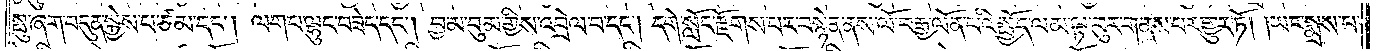སྤུ་ཞག་བདུན་སྐྱེས་པ་ཙམ་དང༌། ལག་པ་ལྷུང་བཟེད་དང༌། བྱ་མ་བུམ་གྱིས་འབྲེལ་བ་དང༌། དགེ་སློང་རྫོགས་པར་བསྙེན་ནས་ལོ་བརྒྱ་ལོན་པའི་སྤྱོད་ལམ་ལྟ་བུར་གནས་པར་གྱུར་ཏོ། །ཡང་སྨྲས་པ་
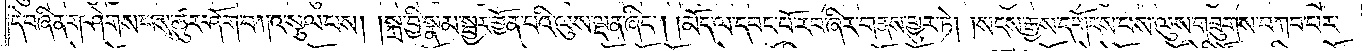དེ་བཞིན་གཤེགས་པས་ཚུར་ཤོག་བཀའ་སྩལ་པས། །སྐྲ་བྱི་སྣམ་སྦྱར་གྱོན་པའི་ལུས་ལྡན་ཞིང༌། །མོད་ལ་དབང་པོ་རབ་ཞིར་གནས་གྱུར་ཏེ། །སངས་རྒྱས་དགོངས་པས་ལུས་གཟུགས་བཀབ་པར་
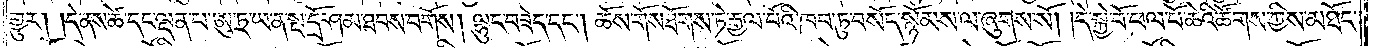གྱུར། །དེ་ནས་ཚེ་དང་ལྡན་པ་ཨུ་ཏྲ་ཡ་ན་སྔ་དྲོ་ཤམ་ཐབས་བགོས། ལྷུང་བཟེད་དང༌། ཆོས་གོས་ཐོགས་ཏེ་རྒྱལ་པོའི་ཁབ་ཏུ་བསོད་སྙོམས་ལ་ཞུགས་སོ། །དེ་སྐྱེ་བོ་ཕལ་པོ་ཆེའི་ཚོགས་ཀྱིས་མཐོང་
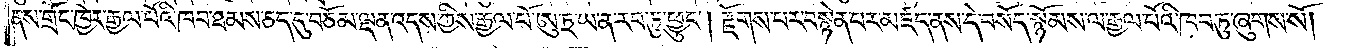ནས་གྲོང་ཁྱེར་རྒྱལ་པོའི་ཁབ་ཐམས་ཅད་དུ་བཅོམ་ལྡན་འདས་ཀྱིས་རྒྱལ་པོ་ཨུ་ཏྲ་ཡ་ན་རབ་ཏུ་ཕྱུང༌། རྫོགས་པར་བསྙེན་པར་མཛད་ནས་དེ་བསོད་སྙོམས་ལ་རྒྱལ་པོའི་ཁབ་ཏུ་ཞུགས་སོ། །
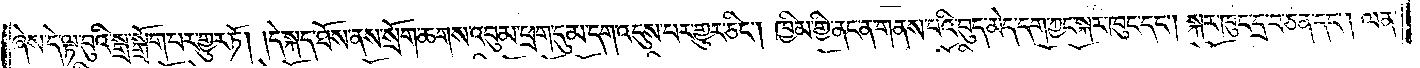ཞེས་དེ་ལྟ་བུའི་སྒྲ་སྒྲོག་པར་གྱུར་ཏོ། །དེ་སྐད་ཐོས་ནས་སྲོག་ཆགས་འབུམ་ཕྲག་དུ་མ་དག་འདུས་པར་གྱུར་ཅིང༌། ཁྱིམ་གྱི་ནང་ན་གནས་པའི་བུད་མེད་དག་ཀྱང་སྐར་ཁུང་དང༌། སྐར་ཁུང་དྲ་བ་ཅན་དང༌། ལན་
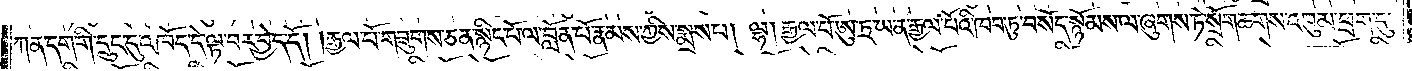ཀན་དག་གི་དྲུང་དུ་འཁོད་དེ་ལྟ་བར་བྱེད་དོ། །རྒྱལ་པོ་གཟུགས་ཅན་སྙིང་པོ་ལ་བློན་པོ་རྣམས་ཀྱིས་སྨྲས་པ། ལྷ། རྒྱལ་པོ་ཨུ་ཏྲ་ཡ་ན་རྒྱལ་པོའི་ཁབ་ཏུ་བསོད་སྙོམས་ལ་ཞུགས་ཏེ་སྲོག་ཆགས་འབུམ་ཕྲག་དུ་
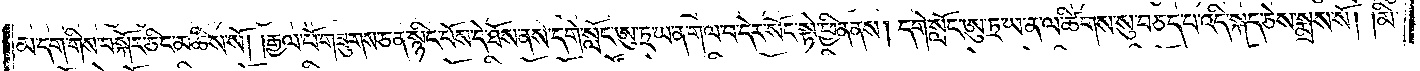མ་དག་གིས་བསྐོར་ཅིང་མཆིས་སོ། །རྒྱལ་པོ་གཟུགས་ཅན་སྙིང་པོས་དེ་ཐོས་ནས་དགེ་སློང་ཨུ་ཏྲ་ཡ་ན་ག་ལ་བ་དེར་སོང་སྟེ་ཕྱིན་ནས། དགེ་སློང་ཨུ་ཏྲ་ཡ་ན་ལ་ཚིགས་སུ་བཅད་པ་འདི་སྐད་ཅེས་སྨྲས་སོ། །མི་
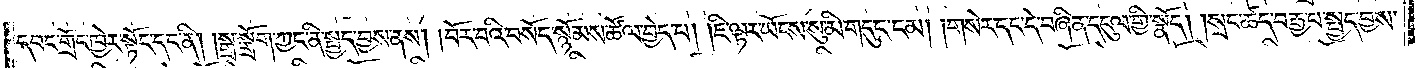དབང་གྲོང་ཁྱེར་སྟོང་དང་ནི། །སྒྲ་སྒྲོག་ཀྱང་ནི་སྤྱད་བྱས་ནས། །བོར་བའི་བསོད་སྙོམས་ཚོལ་བྱེད་པ། །ཇི་ལྟར་ཡོངས་སུ་མི་གདུང་ངམ། །གསེར་དང་དེ་བཞིན་དངུལ་གྱི་སྣོད། །སྲང་ཚད་བརྒྱ་པ་སྤྱད་བྱས་
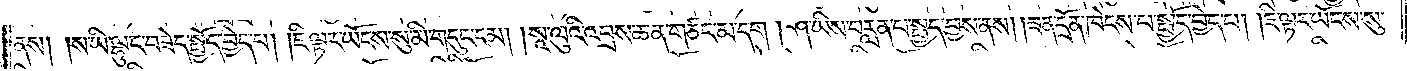ནས། །ས་ཡི་ལྷུང་བཟེད་སྤྱོད་བྱེད་པ། །ཇི་ལྟར་ཡོངས་སུ་མི་གདུང་ངམ། །སཱ་ལུའི་འབྲས་ཆན་གཙང་མ་དག །ཤ་ཡིས་བརླན་པ་སྤྱད་བྱས་ནས། །ཟན་དྲོན་ཁེངས་པ་སྤྱོད་བྱེད་པ། །ཇི་ལྟར་ཡོངས་སུ་
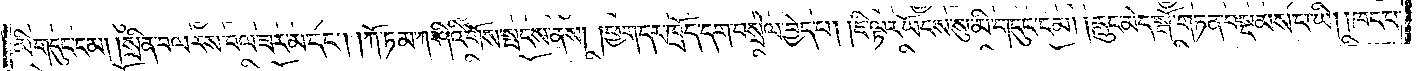མི་གདུང་ངམ། །སྲིན་བལ་རས་བལ་ཟར་མ་དང༌། །ཀོ་ཏ་མ་ཀ་ཤིའི་གོས་སྤངས་ནས། །ཕྱག་དར་ཁྲོད་དག་བསྲེལ་བྱེད་པ། །ཇི་ལྟར་ཡོངས་སུ་མི་གདུང་ངམ། །རླུང་མེད་སྒོ་གཏན་བསྡམས་པ་ཡི། །ཁང་པ་
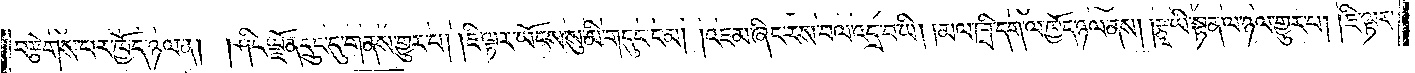བརྩེགས་པར་ཁྱོད་ཉལ་ན། །ཤིང་ལྗོན་དྲུང་དུ་གནས་གྱུར་པ། །ཇི་ལྟར་ཡོངས་སུ་མི་གདུང་ངམ། །འཇམ་ཞིང་རས་བལ་འདྲ་བ་ཡི། །མལ་ཁྲི་དག་ལ་ཁྱོད་ཉལ་ནས། །རྩྭ་ཡི་སྟན་ལ་ཉལ་གྱུར་པ། །ཇི་ལྟར་
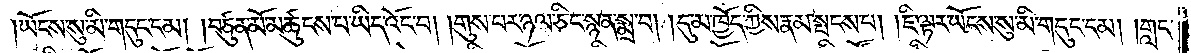ཡོངས་སུ་མི་གདུང་ངམ། །བཙུན་མོ་མཚུངས་པ་ཡིད་འོང་བ། །གུས་པར་ཉལ་ཅིང་སྙན་སྨྲ་བ། །དུ་མ་ཁྱོད་ཀྱིས་རྣམ་སྤངས་པ། །ཇི་ལྟར་ཡོངས་སུ་མི་གདུང་ངམ། །གླང་
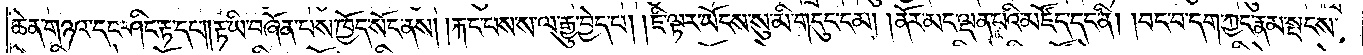ཆེན་གཉའ་དང་ཤིང་རྟ་དང༌༎རྟ་ཡི་བཞོན་པས་ཁྱོད་སོང་ནས། །རྐང་པས་ས་ལ་རྒྱུ་བྱེད་པ། །ཇི་ལྟར་ཡོངས་སུ་མི་གདུང་ངམ། ། ནོར་མང་ལྡན་པའི་མཛོད་དང་ནི། །བང་བ་དག་ཀྱང་རྣམ་སྤངས་
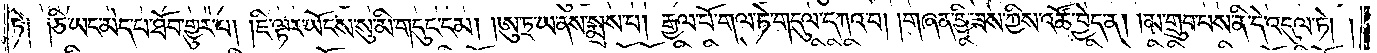ཏེ། །ཅི་ཡང་མེད་པ་ཐོབ་གྱུར་པ། །ཇི་ལྟར་ཡོངས་སུ་མི་གདུང་ངམ། །ཨུ་ཏྲ་ཡ་ནས་སྨྲས་པ། རྒྱལ་པོ་གལ་ཏེ་གདུལ་དཀའ་བ། །གཞན་གྱི་ཟས་ཀྱིས་འཚོ་བྱེད་ན། །མ་གྲུབ་པས་ནི་དེ་འདུལ་ཏེ། །
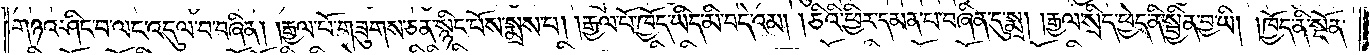གཉའ་ཤིང་བ་ལང་འདུལ་བ་བཞིན། །རྒྱལ་པོ་གཟུགས་ཅན་སྙིང་པོས་སྨྲས་པ། །རྒྱལ་པོ་ཁྱོད་ཡིད་མི་བདེའམ། །ཅིའི་ཕྱིར་དམན་པ་བཞིན་དུ་སྨྲ། །རྒྱལ་སྲིད་ཕྱེད་ནི་སྦྱིན་བྱ་ཡི། །ཁྱོད་ནི་སྔོན་
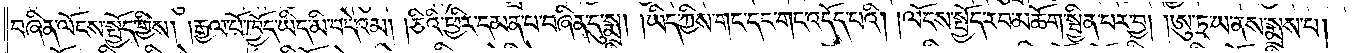བཞིན་ལོངས་སྤྱོད་གྱིས། །རྒྱལ་པོ་ཁྱོད་ཡིད་མི་བདེའམ། །ཅིའི་ཕྱིར་དམན་པ་བཞིན་དུ་སྨྲ། །ཡིད་ཀྱིས་གང་དང་གང་འདོད་པའི། །ལོངས་སྤྱོད་རབ་མཆོག་སྦྱིན་པར་བྱ། །ཨུ་ཏྲ་ཡ་ནས་སྨྲས་པ།
